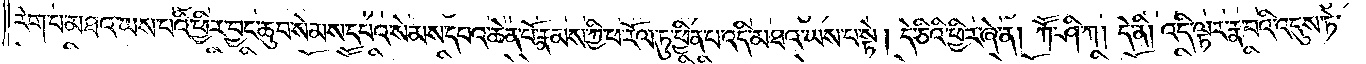རེག་པ་མཐའ་ཡས་པའི་ཕྱིར་བྱང་ཆུབ་སེམས་དཔའ་སེམས་དཔའ་ཆེན་པོ་རྣམས་ཀྱི་ཕ་རོལ་ཏུ་ཕྱིན་པ་འདི་མཐའ་ཡས་པ་སྟེ། དེ་ཅིའི་ཕྱིར་ཞེ་ན། ཀཽ་ཤི་ཀ། དེ་ནི། འདི་ལྟར་རྣ་བའི་འདུས་ཏེ་
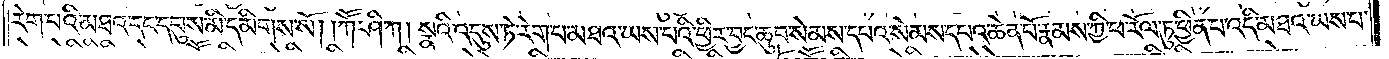རེག་པའི་མཐའ་དང་དབུས་མི་དམིགས་སོ། །ཀཽ་ཤི་ཀ། སྣའི་འདུས་ཏེ་རེག་པ་མཐའ་ཡས་པའི་ཕྱིར་བྱང་ཆུབ་སེམས་དཔའ་སེམས་དཔའ་ཆེན་པོ་རྣམས་ཀྱི་ཕ་རོལ་ཏུ་ཕྱིན་པ་འདི་མཐའ་ཡས་པ་
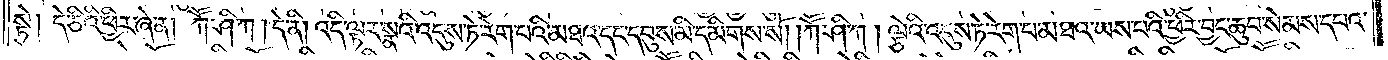སྟེ། དེ་ཅིའི་ཕྱིར་ཞེ་ན། ཀཽ་ཤི་ཀ །དེ་ནི། འདི་ལྟར་སྣའི་འདུས་ཏེ་རེག་པའི་མཐའ་དང་དབུས་མི་དམིགས་སོ། །ཀཽ་ཤི་ཀ། ལྕེའི་འདུས་ཏེ་རེག་པ་མཐའ་ཡས་པའི་ཕྱིར་བྱང་ཆུབ་སེམས་དཔའ་
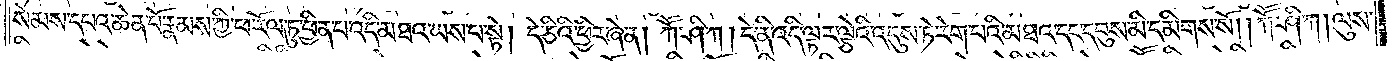སེམས་དཔའ་ཆེན་པོ་རྣམས་ཀྱི་ཕ་རོལ་ཏུ་ཕྱིན་པ་འདི་མཐའ་ཡས་པ་སྟེ། དེ་ཅིའི་ཕྱིར་ཞེ་ན། ཀཽ་ཤི་ཀ། དེ་ནི་འདི་ལྟར་ལྕེའི་འདུས་ཏེ་རེག་པའི་མཐའ་དང་དབུས་མི་དམིགས་སོ། །ཀཽ་ཤི་ཀ། ལུས་
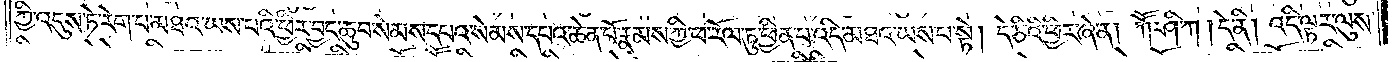ཀྱི་འདུས་ཏེ་རེག་པ་མཐའ་ཡས་པའི་ཕྱིར་བྱང་ཆུབ་སེམས་དཔའ་སེམས་དཔའ་ཆེན་པོ་རྣམས་ཀྱི་ཕ་རོལ་ཏུ་ཕྱིན་པ་འདི་མཐའ་ཡས་པ་སྟེ། དེ་ཅིའི་ཕྱིར་ཞེ་ན། ཀཽ་ཤི་ཀ །དེ་ནི། འདི་ལྟར་ལུས་
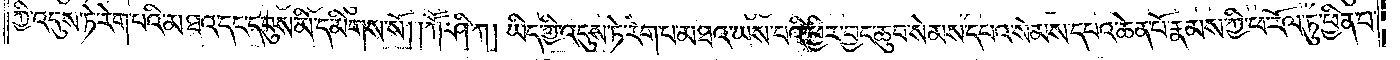ཀྱི་འདུས་ཏེ་རེག་པའི་མཐའ་དང་དབུས་མི་དམིགས་སོ། །ཀཽ་ཤི་ཀ། ཡིད་ཀྱི་འདུས་ཏེ་རེག་པ་མཐའ་ཡས་པའི་ཕྱིར་བྱང་ཆུབ་སེམས་དཔའ་སེམས་དཔའ་ཆེན་པོ་རྣམས་ཀྱི་ཕ་རོལ་ཏུ་ཕྱིན་པ་
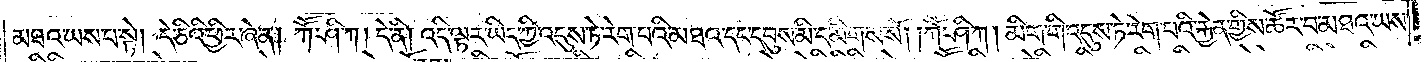མཐའ་ཡས་པ་སྟེ། དེ་ཅིའི་ཕྱིར་ཞེ་ན། ཀཽ་ཤི་ཀ །དེ་ནི། འདི་ལྟར་ཡིད་ཀྱི་འདུས་ཏེ་རེག་པའི་མཐའ་དང་དབུས་མི་དམིགས་སོ། །ཀཽ་ཤི་ཀ། མིག་གི་འདུས་ཏེ་རེག་པའི་རྐྱེན་གྱིས་ཚོར་བ་མཐའ་ཡས་
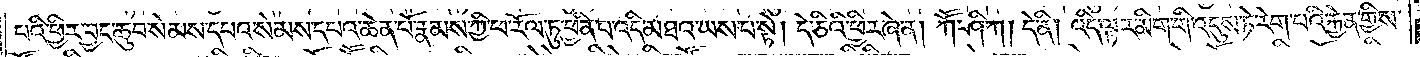པའི་ཕྱིར་བྱང་ཆུབ་སེམས་དཔའ་སེམས་དཔའ་ཆེན་པོ་རྣམས་ཀྱི་ཕ་རོལ་ཏུ་ཕྱིན་པ་འདི་མཐའ་ཡས་པ་སྟེ། དེ་ཅིའི་ཕྱིར་ཞེ་ན། ཀཽ་ཤི་ཀ། དེ་ནི། འདི་ལྟར་མིག་གི་འདུས་ཏེ་རེག་པའི་རྐྱེན་གྱིས་
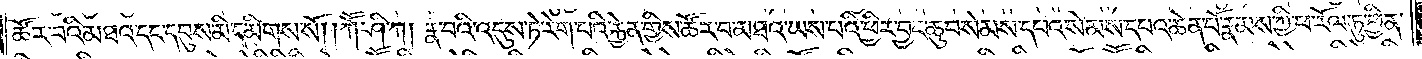ཚོར་བའི་མཐའ་དང་དབུས་མི་དམིགས་སོ། །ཀཽ་ཤི་ཀ། རྣ་བའི་འདུས་ཏེ་རེག་པའི་རྐྱེན་གྱིས་ཚོར་བ་མཐའ་ཡས་པའི་ཕྱིར་བྱང་ཆུབ་སེམས་དཔའ་སེམས་དཔའ་ཆེན་པོ་རྣམས་ཀྱི་ཕ་རོལ་ཏུ་ཕྱིན་
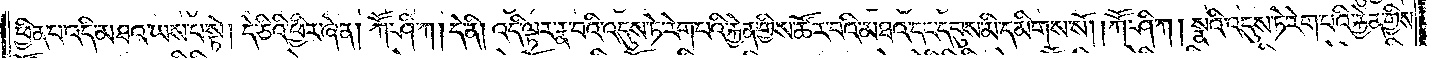ཕྱིན་པ་འདི་མཐའ་ཡས་པ་སྟེ། དེ་ཅིའི་ཕྱིར་ཞེ་ན། ཀཽ་ཤི་ཀ། དེ་ནི། འདི་ལྟར་རྣ་བའི་འདུས་ཏེ་རེག་པའི་རྐྱེན་གྱིས་ཚོར་བའི་མཐའ་དང་དབུས་མི་དམིགས་སོ། །ཀཽ་ཤི་ཀ། སྣའི་འདུས་ཏེ་རེག་པའི་རྐྱེན་གྱིས་
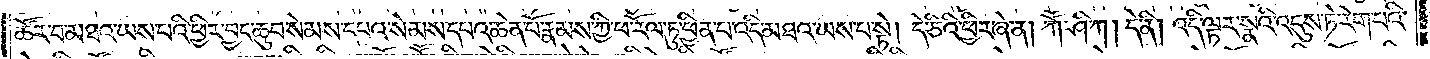ཚོར་བ་མཐའ་ཡས་པའི་ཕྱིར་བྱང་ཆུབ་སེམས་དཔའ་སེམས་དཔའ་ཆེན་པོ་རྣམས་ཀྱི་ཕ་རོལ་ཏུ་ཕྱིན་པ་འདི་མཐའ་ཡས་པ་སྟེ། དེ་ཅིའི་ཕྱིར་ཞེ་ན། ཀཽ་ཤི་ཀ། དེ་ནི། འདི་ལྟར་སྣའི་འདུས་ཏེ་རེག་པའི་
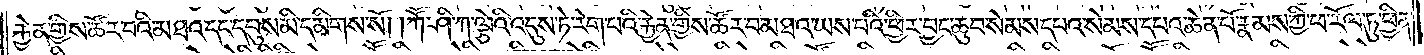རྐྱེན་གྱིས་ཚོར་བའི་མཐའ་དང་དབུས་མི་དམིགས་སོ། །ཀཽ་ཤི་ཀ་ལྕེའི་འདུས་ཏེ་རེག་པའི་རྐྱེན་གྱིས་ཚོར་བ་མཐའ་ཡས་པའི་ཕྱིར་བྱང་ཆུབ་སེམས་དཔའ་སེམས་དཔའ་ཆེན་པོ་རྣམས་ཀྱི་ཕ་རོལ་ཏུ་ཕྱིན་
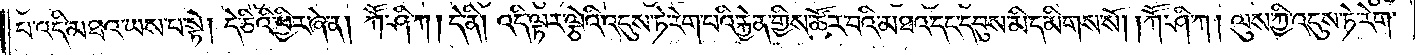པ་འདི་མཐའ་ཡས་པ་སྟེ། དེ་ཅིའི་ཕྱིར་ཞེ་ན། ཀཽ་ཤི་ཀ། དེ་ནི། འདི་ལྟར་ལྕེའི་འདུས་ཏེ་རེག་པའི་རྐྱེན་གྱིས་ཚོར་བའི་མཐའ་དང་དབུས་མི་དམིགས་སོ། །ཀཽ་ཤི་ཀ། ལུས་ཀྱི་འདུས་ཏེ་རེག་
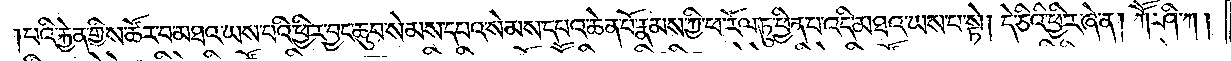པའི་རྐྱེན་གྱིས་ཚོར་བ་མཐའ་ཡས་པའི་ཕྱིར་བྱང་ཆུབ་སེམས་དཔའ་སེམས་དཔའ་ཆེན་པོ་རྣམས་ཀྱི་ཕ་རོལ་ཏུ་ཕྱིན་པ་འདི་མཐའ་ཡས་པ་སྟེ། དེ་ཅིའི་ཕྱིར་ཞེ་ན། ཀཽ་ཤི་ཀ།
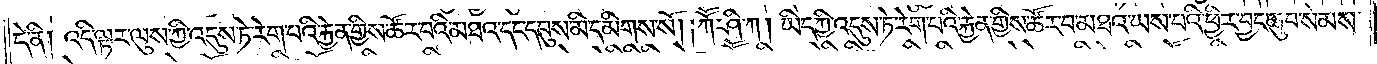དེ་ནི། འདི་ལྟར་ལུས་ཀྱི་འདུས་ཏེ་རེག་པའི་རྐྱེན་གྱིས་ཚོར་བའི་མཐའ་དང་དབུས་མི་དམིགས་སོ། །ཀཽ་ཤི་ཀ། ཡིད་ཀྱི་འདུས་ཏེ་རེག་པའི་རྐྱེན་གྱིས་ཚོར་བ་མཐའ་ཡས་པའི་ཕྱིར་བྱང་ཆུབ་སེམས་
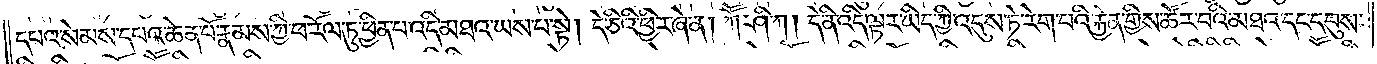དཔའ་སེམས་དཔའ་ཆེན་པོ་རྣམས་ཀྱི་ཕ་རོལ་ཏུ་ཕྱིན་པ་འདི་མཐའ་ཡས་པ་སྟེ། དེ་ཅིའི་ཕྱིར་ཞེ་ན། ཀཽ་ཤི་ཀ། དེ་ནི་འདི་ལྟར་ཡིད་ཀྱི་འདུས་ཏེ་རེག་པའི་རྐྱེན་གྱིས་ཚོར་བའི་མཐའ་དང་དབུས་
